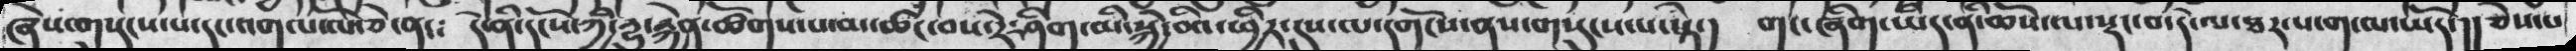ཞེས་གསུངས་པ་དང་འགལ་ལོ་ཅེ་ན་༴  དེ་ནི་དངོས་ཀྱི་རྱུ་རྐྱེན་ཚོགས་པ་མ་ཚང་བས་རེ་ཤིག་མི་སྐྱེ་བའི་ཕྱིར་དུས་ལ་དགོངས་ནས་གསུངས་པ་སྟེ་།  གང་ཞིག་ཡིད་ནི་ཆོས་ལ་སྡང་བ་དེ་ལ་ཐར་པ་ག་ལ་ཡོད་།། ཅེས་པ
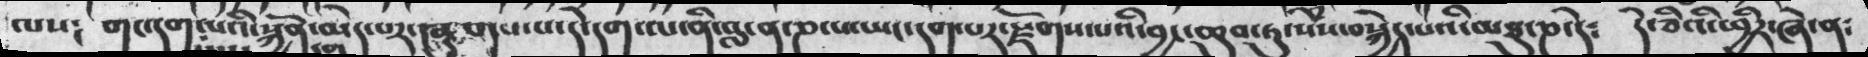ལས་   ག་དག་པའི་སྐྱོན་མེད་པར་ཞུགས་པ་དེ་དག་ལ་ནི་བླ་ན་ཎ་པ་ཡང་དག་པར་སྫོགས་པའི་བྱང་ཆུབ་ཏུ་སེཾས་བསྐྱེད་པའི་མཐུ་ཎ་དེ༴    དེ་ཅིའི་ཕྱིར་ཞེ་ན༴
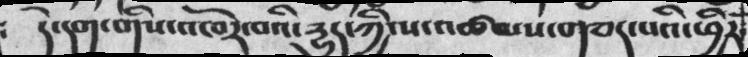དེ་དག་གིས་འཁོར་བའི་རྱུད་ཀྱི་ས་འཚམས་གཅད་པའི་ཕྱིར
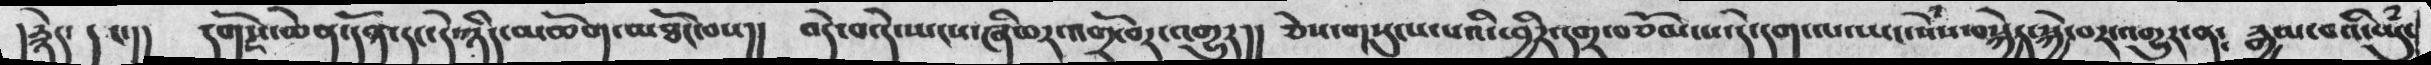།རྙེད་དང་།།   དགོས་ཆེན་དོན་དང་དེ་ཉིད་མཆོག་མཐོང་བས།།   བདེ་བ་དེ་ཡངས་ཞི་བར་འགྲོ་བར་འགྱུར།།   ཅེས་གསུངས་པའི་ཕྱིར་དགྲ་བཅོམ་པ་དེ་དག་ལ་ཡང་སེཾས་བསྐྱེད་སྐྱེ་བར་འགྱུར་ན༴ རྒྱལ་བའི་ཡུཾ་
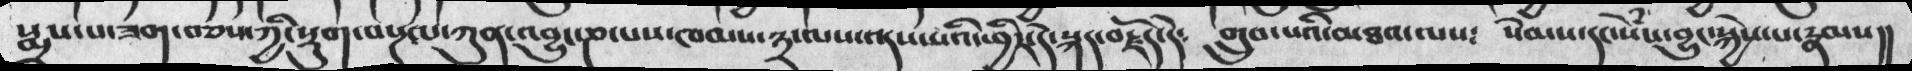སྨྲས་པ་ཟག་བཅས་ཀྱི་སྡུག་བསྔལ་ཀུན་འབྱུང་ཎ་པས་ཁམས་༣་ལས་འདས་པའི་ཕྱིར་དེ་སྐད་བརྗོད་དེ༴  གྲུབ་པའི་མཐའ་ལས༴  སེམས་དང་དསེཾས་བྱུང་སྐྱེས་པ་རྣམས།།
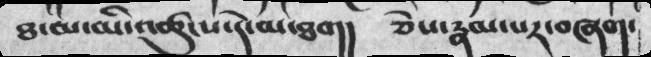ཐ་མ་མི་འཚུངས་དེ་མ་ཐག། ཅེས་རྣམ་པར་བཞག་
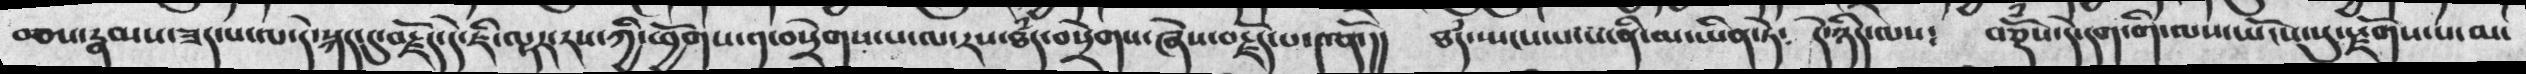བཅས་རྣམས་ཟད་པ་དེ་སྐད་དུ་བརྗོད་དེ་ཇི་ལྟར་རས་ཀྱི་ཕྱོགས་༡་བསྲེགས་པ་ལ་རས་ཐཾད་བསྲེགས་ཞེས་བརྗོད་པ་༤ནོ་།།  ཐཾད་སྤངས་པ་ས་ནི་མ་ཡིན་ཏེ༴  དེ་ཉིད་ལས༴  བཅྡོཾས་དེ་དག་གི་ལས་ཡོངས་སུ་སྫོགས་པ་མ་
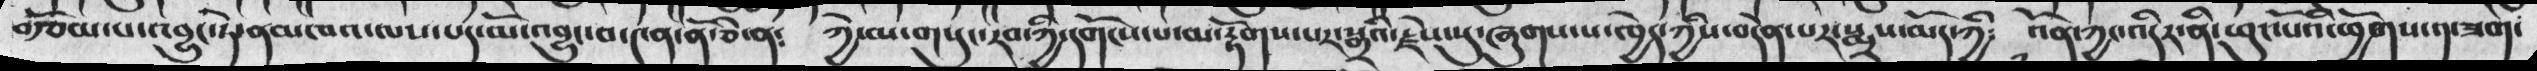བརྩོམ་པ༴འབྱུང་ཏེ་ནམཁའ་ལས་པད་མོ་འབྱུང་བ་༤ན་ནོ་ཅི་ན༴  ཀྱེ་མ་གསུང་རབ་ཀྱི་དགོངས་པ་མ་རྟོགས་པར་སྒྲའི་རྗེས་སུ་ཞུགས་པ་ཁྱེད་ཀྱིས་དབེན་པར་སྨྲས་མོད་ཀྱི༴  འོན་ཀྱང་འདིར་ནི་ཕུང་པོའི་ཕྱོགས་༡་ཟག་
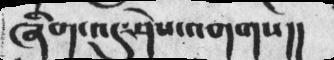ཞིག་འདུ་ཤེས་འགགས།།
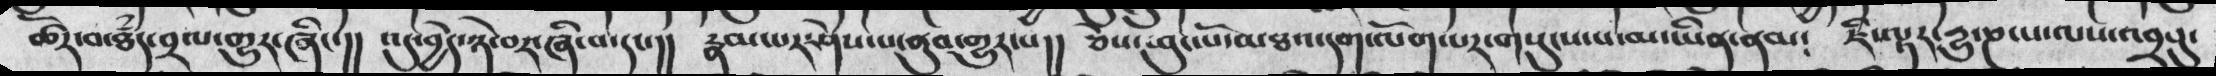ཚོར་བ་ཐཾད་བྲལ་གྱུར་ཞིང་།།  འདུ་བྱེད་ཉེ་བར་ཞི་བ་དང་།།  རྣམ་པར་ཤེས་པ་ནུབ་གྱུར་པ།།  ཅེས་ཕུང་པོ་མཐའ་དག་ལོག་པར་གསུངས་པ་མ་ཡིན་ནམ༴  ཇི་ལྟར་རྱུ་ཎ་པ་ལས་འབྲབུ་
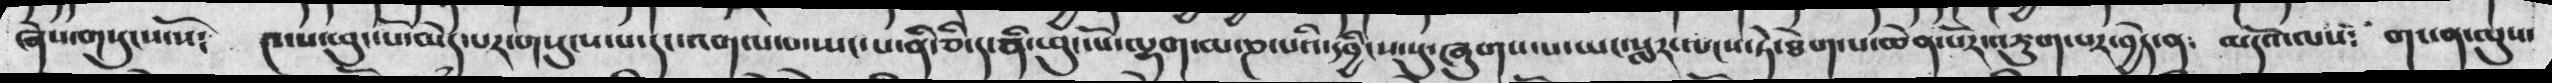ཞེས་གསུངས་སོ༴ ༤་པ་ཕུང་པོ་མེད་པར་གསུངས་པ་དང་འགལ་བ་ཡང་པ་ནི་ཅི་ད་ནི་ཕུང་པོ་ལྷག་མ་ཎ་པའི་དབྱིངས་སུ་ཞུགས་པ་ཡང་སླར་ལངས་ཏེ་ཐེག་པ་ཆེམ་པོར་འཇུག་པར་བྱེད་ན༴ མདོའ་ལས༴ གང་ན་ལུས་
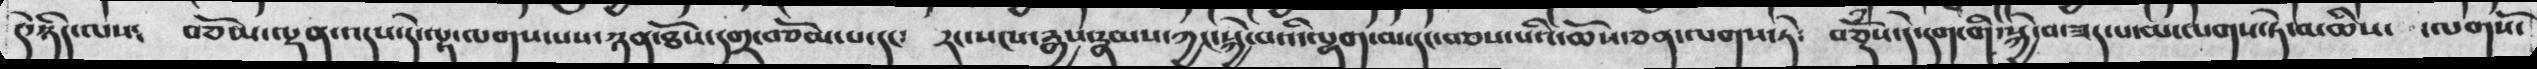དེ་ཉིད་ལས༴  བཅོམ་ལྡན་འདས་དེ་ལྟ་ལགས་པས་ཉན་ཐོས་དགྲ་བཅོམ་པ་དང༴  རང་སངས་རྒྱས་རྣམས་ཀྱང་སྐྱེ་བའི་ལྷག་མ་དང་བཅས་པའི་ཆོས་ཅན་ལགས་ཏེ༴  བཅྡོཾས་དེ་དག་གི་སྐྱེ་བ་ཟད་པ་མ་ལགས་ཏེ་མཆིས་ ་ལགསོ་
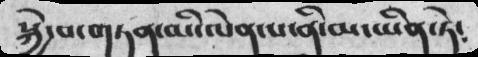སྐྱེ་བ་གཏན་མི་ལེན་པ་ནི་མ་ཡིན་ཏེ༴
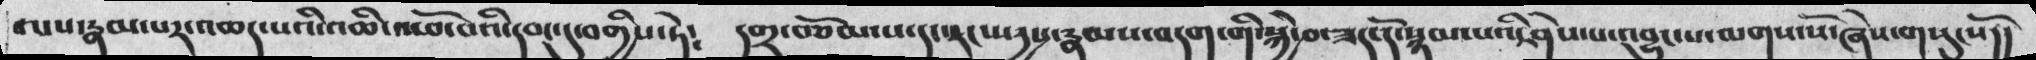ལས་རྣམ་པར་འཆད་པའི་འཆི་འཕོ་བའི་དབང་དུ་བགྱིས་ཏེ༴  དགྲ་བཅོམ་པ་དང་རང་སརྱས་རྣམས་བདག་གི་སྐྱེ་བ་ཟད་དོ་སྙམ་པའི་ཤེས་པ་འབྱུང་པ་ལགས་སོ་ཞེས་གསུངསོ།།
